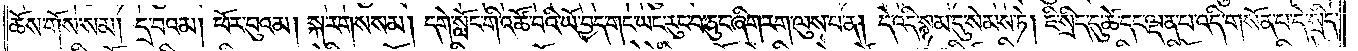ཆོས་གོས་སམ། དྲ་བའམ། ཕོར་བུའམ། སྐ་རགས་སམ། དགེ་སློང་གི་འཚོ་བའི་ཡོ་བྱད་གང་ཡང་རུང་བ་ཅུང་ཞིག་རག་ལུས་པ་ན། དེ་འདི་སྙམ་དུ་སེམས་ཏེ། ཇི་སྲིད་དུ་ཚེ་དང་ལྡན་པ་འདི་གསོན་པ་དེ་སྲིད་
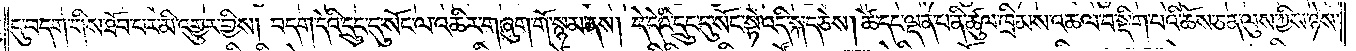དུ་བདག་གིས་ཐོབ་པར་མི་འགྱུར་གྱིས། བདག་དེའི་དྲུང་དུ་སོང་ལ་འཆིར་གཞུག་གོ་སྙམ་ནས། དེ་དེའི་དྲུང་དུ་སོང་སྟེ་འདི་སྐད་ཅེས། ཚེ་དང་ལྡན་པ་ནི་ཚུལ་ཁྲིམས་འཆལ་བ་སྡིག་པའི་ཆོས་ཅན་ལུས་ཀྱིས་ཉེས་
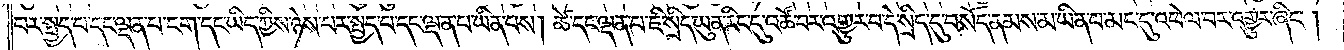པར་སྤྱད་པ་དང་ལྡན་པ་ངག་དང་ཡིད་ཀྱིས་ཉེས་པར་སྤྱད་པ་དང་ལྡན་པ་ཡིན་པས། ཚེ་དང་ལྡན་པ་ཇི་སྲིད་ཡུན་རིང་དུ་འཚོ་བར་འགྱུར་བ་དེ་སྲིད་དུ་བསོད་ནམས་མ་ཡིན་པ་མང་དུ་འཕེལ་བར་འགྱུར་ཞིང༌།
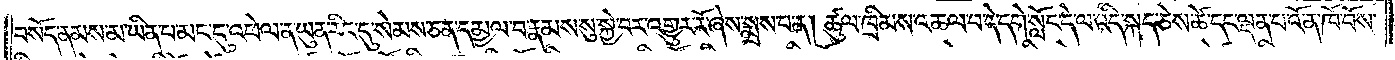བསོད་ནམས་མ་ཡིན་པ་མང་དུ་འཕེལ་ན་ཡུན་རིང་དུ་སེམས་ཅན་དམྱལ་བ་རྣམས་སུ་སྐྱེ་བར་འགྱུར་རོ་ཞེས་སྨྲས་པ་ན། ཚུལ་ཁྲིམས་འཆལ་བ་དེ་དགེ་སློང་དེ་ལ་འདི་སྐད་ཅེས་ཚེ་དང་ལྡན་པ་འོ་ན་ཁོ་བོས་
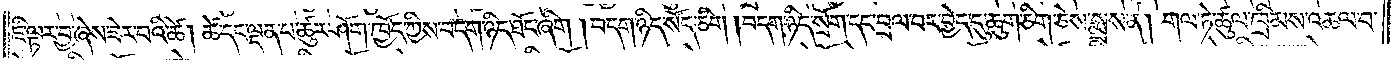ཇི་ལྟར་བྱ་ཞེས་ཟེར་བའི་ཚེ། ཚེ་དང་ལྡན་པ་ཚུར་ཤོག་ཁྱོད་ཀྱིས་བདག་ཉིད་ཐོང་ཞིག །བདག་ཉིད་སོད་ཅིག །བདག་ཉིད་སྲོག་དང་བྲལ་བར་བྱེད་དུ་ཆུག་ཅིག་ཅེས་སྨྲས་ན། གལ་ཏེ་ཚུལ་ཁྲིམས་འཆལ་བ་
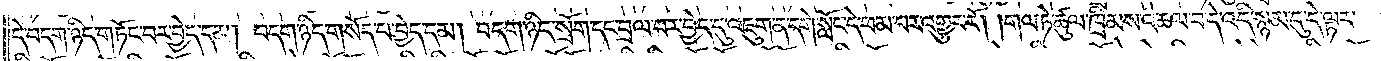དེ་བདག་ཉིད་གཏོང་བར་བྱེད་དམ། བདག་ཉིད་གསོད་པ་བྱེད་དམ། བདག་ཉིད་སྲོག་དང་བྲལ་བར་བྱེད་དུ་འཇུག་ན་དགེ་སློང་དེ་ཕམ་པར་འགྱུར་རོ། །གལ་ཏེ་ཚུལ་ཁྲིམས་འཆལ་བ་དེ་འདི་སྙམ་དུ་དེ་ལྟར་
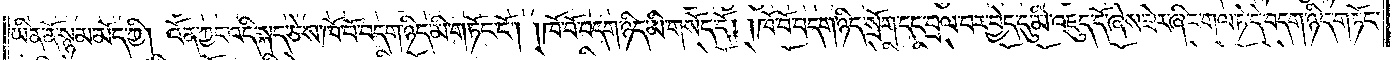ཡིན་ནོ་སྙམ་མོད་ཀྱི། འོན་ཀྱང་འདི་སྐད་ཅེས་ཁོ་བོ་བདག་ཉིད་མི་གཏོང་ངོ༌། །ཁོ་བོ་བདག་ཉིད་མི་གསོད་དོ། །ཁོ་བོ་བདག་ཉིད་སྲོག་དང་བྲལ་བར་བྱེད་དུ་མི་འཇུད་དོ་ཞེས་ཟེར་ཞིང་གལ་ཏེ་དེ་བདག་ཉིད་གཏོང་
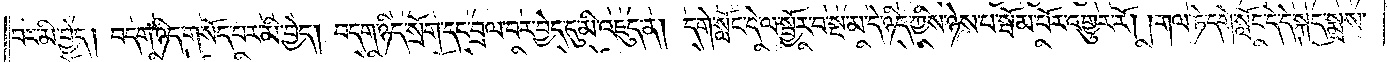བར་མི་བྱེད། བདག་ཉིད་གསོད་པར་མི་བྱེད། བདག་ཉིད་སྲོག་དང་བྲལ་བར་བྱེད་དུ་མི་འཇུད་ན། དགེ་སློང་དེ་ལ་སྦྱོར་བ་སྔ་མ་དེ་ཉིད་ཀྱིས་ཉེས་པ་སྦོམ་པོར་འགྱུར་རོ། །གལ་ཏེ་དགེ་སློང་དེ་དེ་སྐད་སྨྲས་
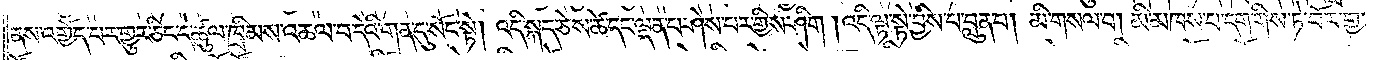ནས་འགྱོད་པར་གྱུར་ཅིང་དེ་ཚུལ་ཁྲིམས་འཆལ་བ་དེའི་གན་དུ་སོང་སྟེ། འདི་སྐད་ཅེས་ཚེ་དང་ལྡན་པ་ཤེས་པར་གྱིས་ཤིག །འདི་ལྟ་སྟེ་བྱིས་པ་བླུན་པ། མི་གསལ་བ། མི་མཁས་པ་དག་གིས་ཏེ་བོར་གྱ་
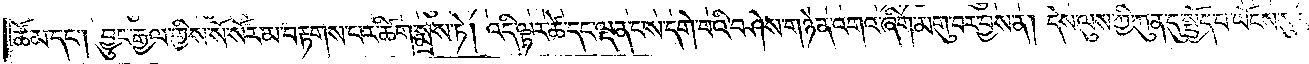ཚོམ་དང༌། བྱུང་རྒྱལ་གྱིས་སོ་སོར་མ་བརྟགས་པར་ཚིག་སྨྲས་ཏེ། འདི་ལྟར་ཚེ་དང་ལྡན་པས་དགེ་བའི་བཤེས་གཉེན་འགའ་ཞིག་མགུ་བར་བྱས་ན། དེས་ལུས་ཀྱི་ཀུན་དུ་སྤྱོད་པ་ཡོངས་སུ་མ་དག་པ་
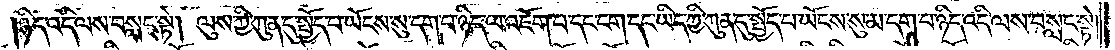ཉིད་འདི་ལས་བསླང་སྟེ། ལུས་ཀྱི་ཀུན་དུ་སྤྱོད་པ་ཡོངས་སུ་དག་པ་ཉིད་ལ་འཇོག་པ་དང་ངག་དང་ཡིད་ཀྱི་ཀུན་དུ་སྤྱོད་པ་ཡོངས་སུ་མ་དག་པ་ཉིད་འདི་ལས་བསླང་སྟེ།
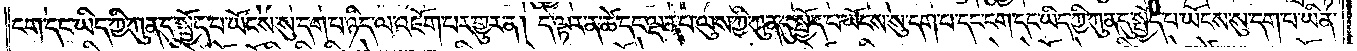ངག་དང་ཡིད་ཀྱི་ཀུན་དུ་སྤྱོད་པ་ཡོངས་སུ་དག་པ་ཉིད་ལ་འཇོག་པར་གྱུར་ན། དེ་ལྟར་ན་ཚེ་དང་ལྡན་པ་ལུས་ཀྱི་ཀུན་དུ་སྤྱོད་པ་ཡོངས་སུ་དག་པ་དང་ངག་དང་ཡིད་ཀྱི་ཀུན་དུ་སྤྱོད་པ་ཡོངས་སུ་དག་པ་ཡིན་
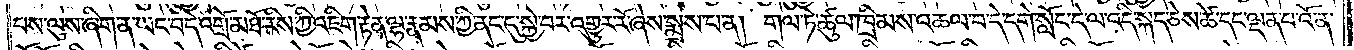པས་ལུས་ཞིག་ན་ཡང་བདེ་འགྲོ་མཐོ་རིས་ཀྱི་འཇིག་རྟེན་ལྷ་རྣམས་ཀྱི་ནང་དུ་སྐྱེ་བར་འགྱུར་རོ་ཞེས་སྨྲས་པ་ན། གལ་ཏེ་ཚུལ་ཁྲིམས་འཆལ་བ་དེ་དགེ་སློང་དེ་ལ་འདི་སྐད་ཅེས་ཚེ་དང་ལྡན་པ་འོ་ན་
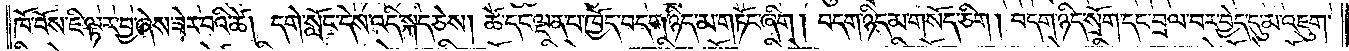ཁོ་བོས་ཇི་ལྟར་བྱ་ཞེས་ཟེར་བའི་ཚེ། དགེ་སློང་དེས་འདི་སྐད་ཅེས། ཚེ་དང་ལྡན་པ་ཁྱོད་བདག་ཉིད་མ་གཏོང་ཞིག། བདག་ཉིད་མ་གསོད་ཅིག །བདག་ཉིད་སྲོག་དང་བྲལ་བར་བྱེད་དུ་མ་འཇུག་
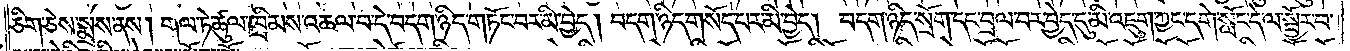ཅིག་ཅེས་སྨྲས་ནས། གལ་ཏེ་ཚུལ་ཁྲིམས་འཆལ་བ་དེ་བདག་ཉིད་གཏོང་བར་མི་བྱེད། བདག་ཉིད་གསོད་པར་མི་བྱེད། བདག་ཉིད་སྲོག་དང་བྲལ་བར་བྱེད་དུ་མི་འཇུག་ཀྱང་དགེ་སློང་དེ་ལ་སྦྱོར་བ་
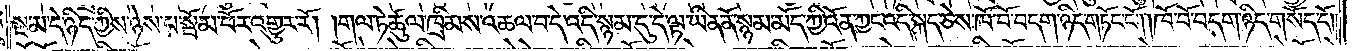སྔ་མ་དེ་ཉིད་ཀྱིས་ཉེས་པ་སྦོམ་པོར་འགྱུར་རོ། །གལ་ཏེ་ཚུལ་ཁྲིམས་འཆལ་བ་དེ་འདི་སྙམ་དུ་དེ་ལྟ་ཡིན་ནོ་སྙམ་མོད་ཀྱི་འོན་ཀྱང་འདི་སྐད་ཅེས་ཁོ་བོ་བདག་ཉིད་གཏོང་ངོ༌། །ཁོ་བོ་བདག་ཉིད་གསོད་དོ༎
